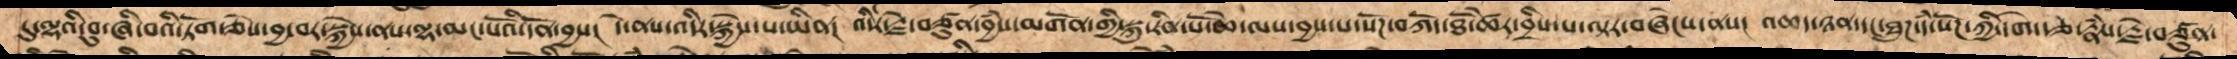དུ་ལྷའི་བུ་ཞི་བའི་ཏོག་ཅེས་བྱ་བར་སྐྱེས་ནས་ལྷ་མང་པོའི་དོན་བྱས།  དེ་ནས་འདིར་སྐྱེས་པ་ཡིན།  འདིར་རྗེ་བཙུན་བྱཾས་མགོན་གྱི་སྐུ་རིན་པོ་ཆེ་ལས་བྱས་པ་སོཌ་བཀོད་ཐོ་ཚེར་བྲིས་པ་ལྟར་བཞེངས་ནསའ།  འཆད་ཉན་དང་ཐུཌ་དཾ་སོཌ་ཀྱི་དགེ་རྩ་རྣཾས་རྗེ་བཙུན་
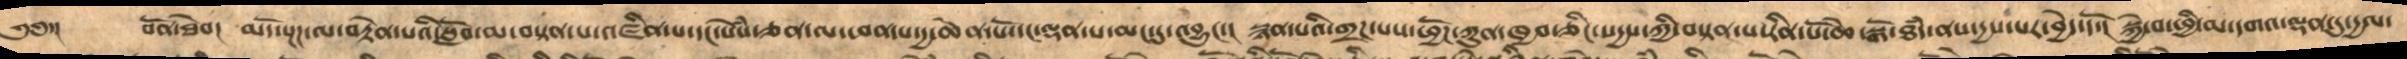༄༅་།    བོན་ཐེབ།  མདོ་སྔཌ་ལ་བརྟེན་པའི་སློབ་མ་བསྟན་པ་འཛིན་པ་དང་སེཾས་ཅན་ལ་ཕན་པ་དྱ་ཆེན་པོ་དང་ལྡན་པ་མང་དུ་འབྱུང་།  སྙན་པའི་གྲཌ་པས་ཕྱོཌ་ཀུན་ཁྱབ་ཅིང་སདྱས་ཀྱི་བསྟན་པ་རིན་པོ་ཆེ་སྒོ་ཐཾད་ནས་དྱས་པར་བྱེད་དོ།  སྐྱེ་བ་ཕྱི་མ་དགའ་ལྡན་དུ་དྱལ་
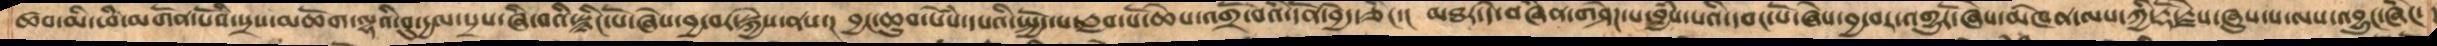ཚབ་མི་ཕཾ་མགོན་པོའི་སྲས་མཆོག་ལྷའི་བུ་དྱལ་སྲས་ཞི་བའི་སྙིང་པོ་ཞེས་བྱ་བར་སྐྱེས་ནས།  བྱང་ཆུབ་སེཾས་དཔའི་སྤྱོད་པ་རླབ་པོ་ཆེས་འགྲོ་བའི་དོན་བྱེད་ཅིང་།  མཐར་དེ་བཞིན་གཤེཌ་པ་བྱཾས་པའི་དབང་པོ་ཞེས་བྱ་བར་འགྱུརོ་ཞེས་མཁེན་ལས་ཀྱི་རྡོ་རྗེས་ཞུས་པ་ལས་འབྱུང་ཞིང་།
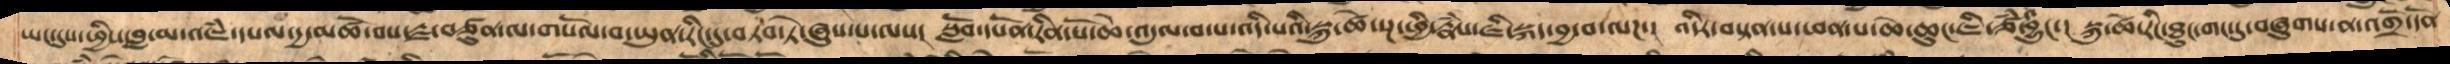ཡང་དུས་ཕྱིས་བླ་མ་འཇཾ་དཔལ་དྱ་མཚོ་བས་རྗ་བཙུན་ལ་གསོལ་བ་ཡུན་རིང་དུ་བཏབ་ཏེ་ཞུས་པ་ལས།  སློབ་དཔོན་རིན་པོ་ཆེ་འདུལ་བ་པ་འདི་པའི་སྐུ་ཚེ་སྔ་ཕྱི་རྣཾས་ཇི་སྐད་བྱ་བ་ལཌ།  འདིར་བསྟན་པ་ལ་ཕན་པ་ཆེ་ཆུང་ཇི་ཙཾ་འབྱུང་།  སྐུ་ཚེ་རིང་ཐུང་གང་དུ་བཞུགས་ན་འགྲོ་དོན་
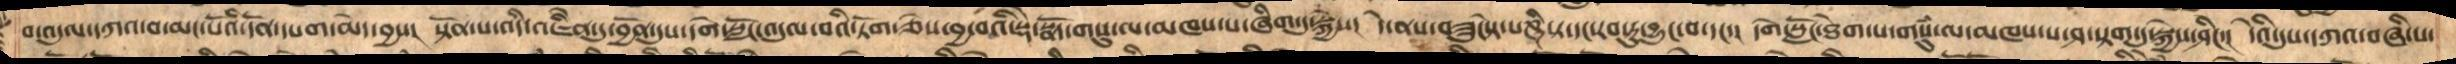བ་འདུལ་དཀའ་བ་མང་པོའི་དོན་དཔག་མེད་བྱས།  སྟོན་པ་འདི་འཇིནེ་དུ་བྱོན་དུས་དགེ་སློང་འདུལ་བའི་ཏོག་ཅེས་བྱ་བའི་སྡེ་སྣོད་གསུ་ལ་མཁས་པ་ཞིག་དུ་སྐྱེས།  དེ་ནས་བཟུངསྟེ་པཎྚི་ཏ་དང་རབ་ཏུ་བྱུང་བ་དང་།  དགེ་སློང་ཐེག་པ་གསུཾ་ལ་མཁས་པ་ཤ་སྟག་དུ་སྐྱེས་ཤིང་།  དེའི་དུས་དཀའ་བཞི་པ་
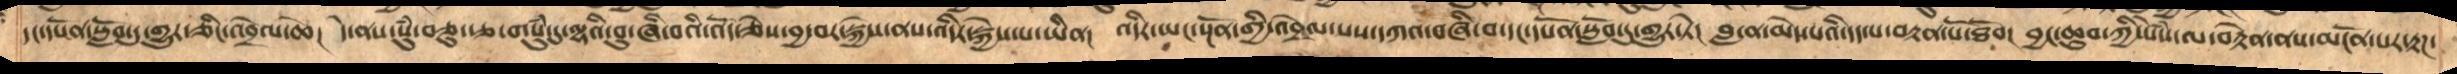དང་དཔོན་སློབ་དུ་གྱུར་ཅིང་འབྲེལ་ཆེ།  དེ་ནས་སུཾ་བཅུ་རྩ་གསུཾ་དུ་ལྷའི་བུ་ཞི་བའི་འོད་ཅེས་བྱ་བར་སྐྱེས་ནས་འདིར་སྐྱེས་པ་ཡིན།  འདིར་ཡང་སྔོན་གྱི་འབྲེལ་པས་དཀའ་བཞི་བ་དང་དཔོན་སློབ་དུ་གྱུར་ཏེ།  བླ་ན་མེད་པའི་དད་པ་བརྟན་པོ་ཐོབ།  བྱང་ཆུབ་ཀྱི་སེཾས་ལ་བརྟེན་ནས་མངོན་པར་རྟཌ་
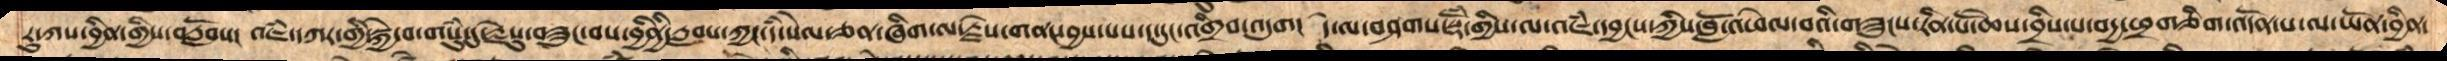རུ་ཀས་བྱིན་གྱིས་བརློབས།  འཇཾ་དཀར་གྱི་སྐྱེ་བ་གསུཾ་དུ་རྗེསུ་བཟུང་བས་བྱིནྱི་རླབས་ཀྱང་དཾ་སེལ་ཅན་ཞིག་ལ་རྗེས་གནང་བྱས་པས་ད་དུང་འགྲིབ་འདུག།   དེ་ལ་བཤགས་སྡོཾ་གྱིས་ལ་འཇཾ་དབྱངས་ཀྱིས་བློ་འཕེལ་བའི་གཟུངས་རིན་པོ་ཆེས་བྲིས་པ་བདྱ་ཕྲགཅིག་འདོན་པ་ལ་ཡོན་བྱིན་
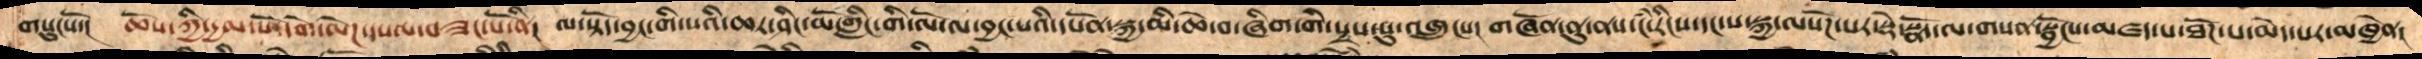གསུངསོ་།།  ཆོས་ཀྱི་དྱལ་པོ་དགེ་ལེཌ་དཔལ་བཟང་པོ་ནི།  ལ་སྟོད་བྱང་གི་སའི་ཆར་ཤིང་མོ་གླིང་གི་ལོ་ལ་བྱང་པའི་དཔོན་སྐྱ་མི་ཆེ་བ་ཅིག་གི་སྲས་སུ་སྐུ་འཁྲུངས།  གཞོན་ནུ་ནས་ངཾ་རིངས་དང་ས་སྐྱ་ལསོཌ་པར་སྡེ་སྣོད་ལ་གསན་སྦྱོངས་མཛད་པ་ཐེཌ་པ་མེད་པར་མཁྱེན།
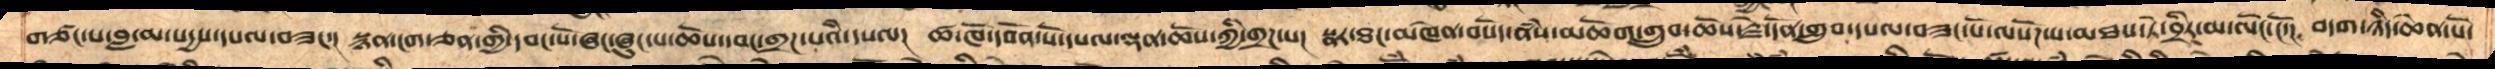གཙང་པ་བླ་མ་སདྱས་དཔལ་བཟང་།  སྙན་ངག་ཅན་གྱི་དབང་པོ་ཞང་ཞུང་པ་ཆོས་དབང་གྲཌ་པའི་དཔལ།  ཚ་ཁོ་དབོན་པོ་དཔལ་ལྡན་ཆོས་ཀྱི་གྲཌ་པ།  སྣར་ཐང་མཁེན་བསོད་ནཾས་མཆོག་གྲུབ་ཆོས་རྗེ་དོན་གྲུབ་དཔལ་བཟང་པོ་ལསོཌ་པ་མཐས་ཏེ་བྲིར་མ་ལོང་ངོ་།  བདག་ཉིད་ཆེན་པོ་
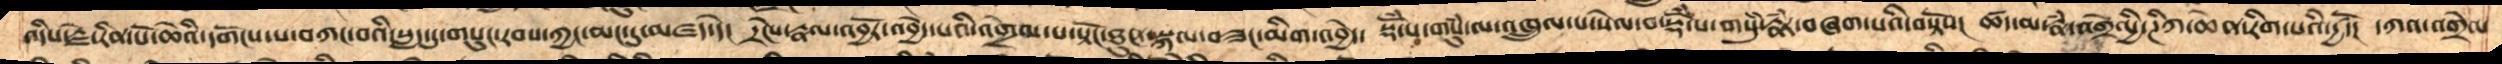འདིས་རྗེ་རིན་པོ་ཆེའི་དགོངས་པ་བཀང་བའི་སླད་དུ་གསུང་རབས་ཀྱང་མང་དུ་མཛད་དེ།  དྲངེས་རྣལ་འབྱོར་འབྱེད་པའི་འགྲེལ་པ་སྟོང་ཐུང་སྐལ་བཟང་མིག་འབྱེད།  སྡོཾ་པ་གསུཾ་ལ་འཁྲུལ་པ་སེལ་བ་སྡོཾ་པ་གསུཾ་རྣཾར་བཞག་པའི་བསྟོས།  ཚད་མ་རྣཾ་འགྲེལྱི་ཊིཀ་ཆེན་རིག་པའི་དྱཚོ་།  དཀའ་འགྲེལ
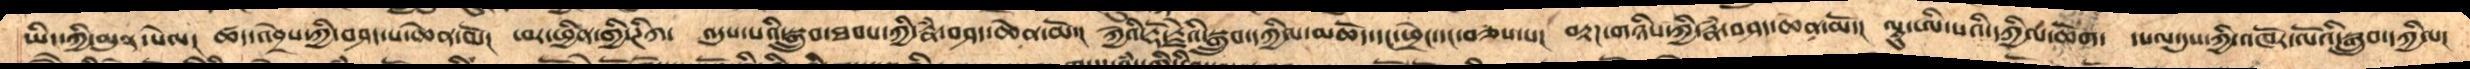ཡིད་ཀྱི་མུན་སེལ།  ཚད་འབྲེས་ཀྱི་བཤད་པ་ཆེན་མོ།  ཕར་ཕྱིན་གྱི་ཊིཀ་  འདུས་པའི་སྒྲུབ་ཐབས་ཀྱི་རྣཾ་བཤད་ཆེན་མོ་།  ཀྱེའི་རྡོ་རྗེའི་སྒྲུབ་དཀྱིལ་མཆོད་དང་ཕྲེང་དང་བཅས་པ།  བརྟཌ་གཉིས་ཀྱི་རྣཾ་བཤད་ཆེན་མོ་།  ལཱུ་ཨི་པའི་དཀྱིལ་ཆོག་  དཔལ་དུས་ཀྱི་འཁོར་ལོའི་སྒྲུབ་དཀྱིལ།
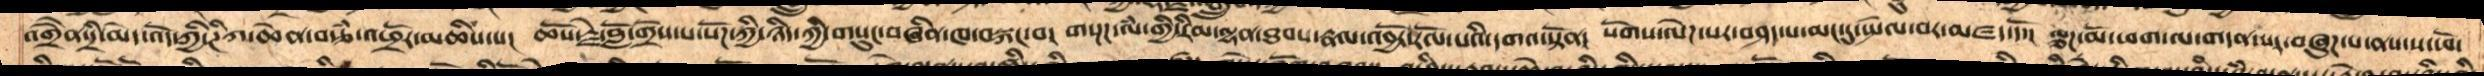འགྲཻན་དྲི་མེད་འོད་ཀྱི་ཊིཀ་ཆེན་བརྩཾ་འཕྲོར་མཆིས་པ།  ཆོས་རྗེ་བློ་གྲོས་པ་སོཌ་ཀྱི་ཉིད་ཀྱི་གསུང་བཞིན་ཁ་བསྐང་བ།  གསྔཌ་ལཾ་གྱི་རིམ་ལྷན་ཐབས་རྣལ་འབྱོར་རོལ་པའི་དགའ་སྟོན།  སོགས་ལེཌ་པར་བཤད་པ་མང་དུ་སྤེལ་བར་མཛད་དོ།  ལྕཌ་མོ་ཕག་ལ་གདན་སར་བཞུཌ་པ་ནས་ས་ཕོ་
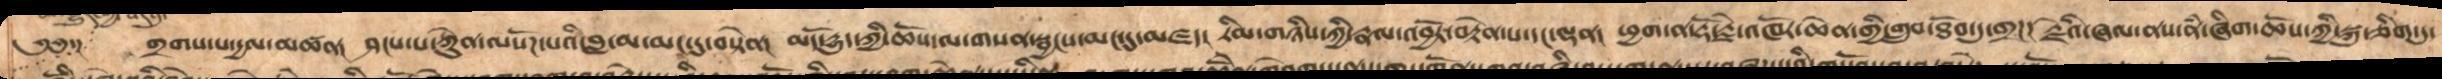༄༅་།  གྲགས་པ་དྱལ་མཚན། ཤངས་པ་ཀེུན་ལསོཌ་པའི་བླ་མ་མང་དུ་བསྟེན། མདོ་དྱུད་ཀྱི་ཆོས་ལ་གསན་སྦྱངས་མང་དུ་མཛད། རིམ་གཉིས་ཀྱི་རྣལ་འབྱོར་བརྟེན་པ་དང་ལྡན། ཕྱག་ན་རྡོ་རྗེ་འཁོར་ཆེན་གྱི་གྲུབ་ཐོབ་དུ་གྲཌ། རྗེའི་ཞལ་ནས་ནཾ་ཞིག་ཆོས་ཀྱི་སྐུ་ཅིག་དུ་
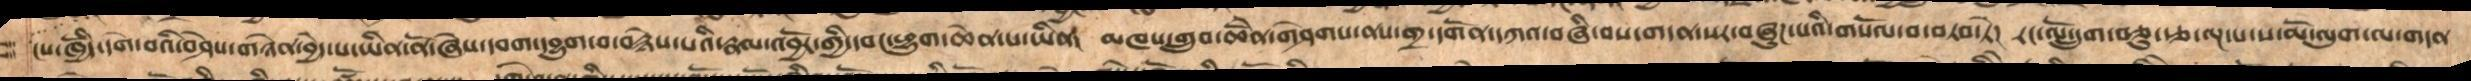ངས་ཁྱོདི་དགེ་བའི་བཤེས་གཉེན་བྱེད་པ་ཡིན་ནོ་ཞེས་དབག་དབྱུག་བ་བརྙེས་པའི་རྣལ་འབྱོར་གྱི་དབང་ཕྱུག་ཆེན་པོ་ཡིན།  མཁས་གྲུབ་ཆེནོ་གཤེགས་ནས་གྲ་དགོན་དཀའ་བཞི་བས་གདན་སར་བཞུཌ་པའི་གསོལ་བ་བཏབ་ཏེ། རང་ལོ་དྲུག་བཅུ་རྩ་ལྔ་པ་ས་མོ་ལུག་ལ་གདན
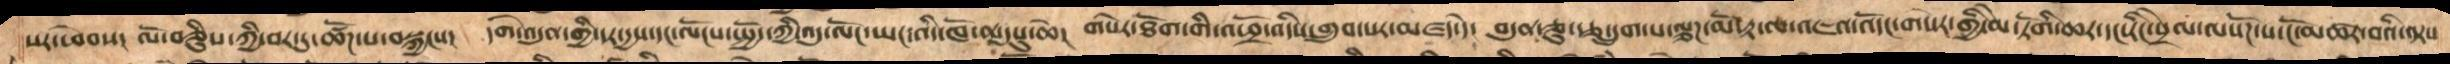སར་ཕེབས།  ལོ་བཅིུས་ཀྱི་བར་དུ་ཚོཌ་པ་བསྐྱངས།  དགེ་འདུན་གྱི་དར་དྱས་དང་ལོངས་སྤྱོད་ཀྱི་འདུ་ལོང་ཡང་འདི་ཁོ་ན་དུསུ་ཆེ།  གསེར་ཐོག་གི་འཕྲོ་འདིས་གྲུབ་པར་མཛད་དེ།  བདུན་ཅུ་རྩ་དྲུག་པ་ལྕཌ་མོ་རྟ་ལ་འཇའ་འོད་དང་གསེར་གྱི་མེ་ཏོགི་ཆར་དང་རིང་སྲེལ་ལསོཌ་པ་ངོ་མཚར་བའི་ལྟས་
